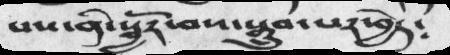པས་ནི་སྦྱོར་བས་སྒྲུབ་པར་བྱེད༴
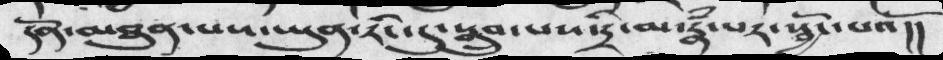དོན་མཐུན་པས་ཡུན་རིང་དུ་སྒྲུབ་པས་དྲི་མ་རྣཾ་པར་སྦྱོང་པའོ།།
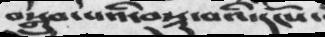བསྒྲུབ་པའི་བསྡུ་བའི་དངོས་
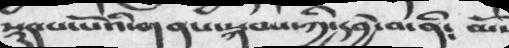སྡུད་པ་པོའི་གནས་སྐབས་ཀྱི་དབྱེ་བ་ནི༴ མོ
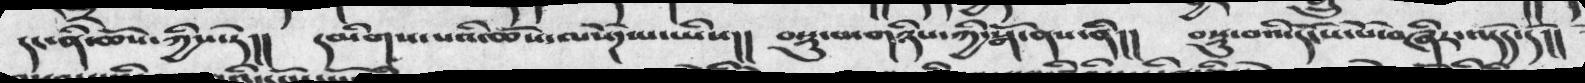དང་ནི་ཆོས་ཀྱིས་ཏེ།། དམིགས་པའི་ཆོས་ལསོཌ་པ་ཡིས།། བསྡུ་བ་གཉིས་ཀྱི་སྒོ་ནས་ནི།། བསྡུ་བའི་དངོས་པོ་བཞིར་འདོད་དོ།།
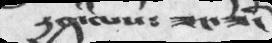དྱན་ལས༴ཟང་ཟིང
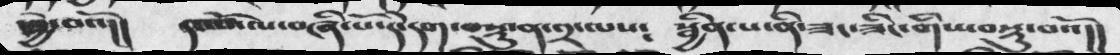དབྱེ་བའོ།།    དང་པོ་ལ་བཞི་པོ་དེ་དག་བསྡུ་ན་༢ལས༴  སྦྱིན་པ་ནི་ཟང་ཟིང་གིས་བསྡུ་བའོ།།
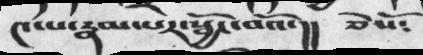༤་པ་རྣམ་པར་སྦྱོང་བའོ་།།   ཅེསོ༴
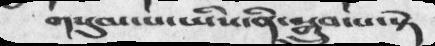གསུམ་པ་ཡིས་ནི་སྒྲུབ་པ་སྟེ
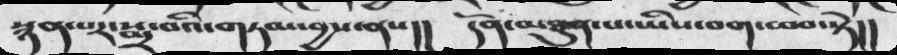སྙན་པར་སྨྲ་བའི་གཏམ་བྱས་ནས།།     དོན་མཐུན་པ་ཡིས་བག་ཕབ་ཏེ།།
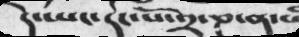དེ་ཡང་དང་པོ་༢་ཎ་ན་
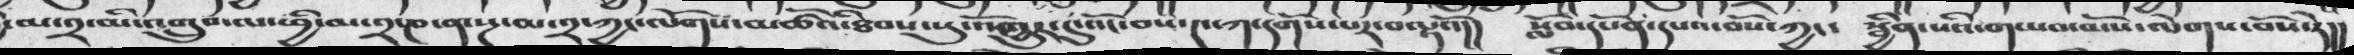མ་༢་མི་འགྲུབ་ལ་ཕྱི་མ་༢་ཎ་ན་སྔ་མ་༢་ཀྱངད་ལོགས་མཚོའི་ཐབས་སུ་འགྱུར་དུ་འོང་བས་༤་ཀ་དགོས་པར་བལྟའོ།།   སློབ་དཔོན་དཔའ་བོས་ཀྱང་  སྦྱིན་པའི་གཡབ་མོས་ལེགས་བསོ་ཏེ།།
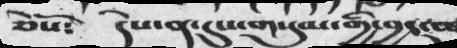ཅེསོ༴      དེས་མ་དུས་གསུམ་གྱི་བྱང་ཆུབ
